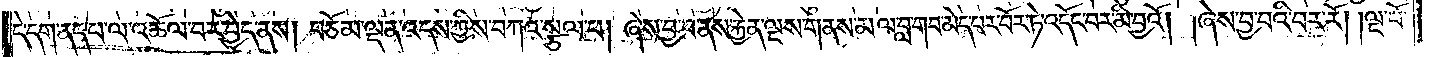དེ་དག་ནད་པ་ལ་འཆོལ་བར་བྱེད་ནས། བཅོམ་ལྡན་འདས་ཀྱིས་བཀའ་སྩལ་པ། ཞེས་བྱ་བ་ནས་རྐྱེན་ལྔས་གནས་མལ་བླ་གབ་མེད་པར་བོར་ཏེ་འདོང་བར་མི་བྱའོ། །ཞེས་བྱ་བའི་བར་རོ། །ལྔ་པོ་
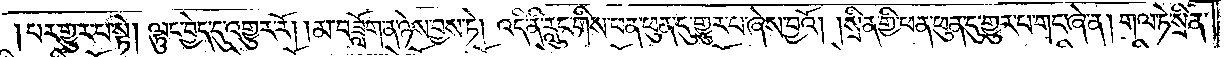པར་གྱུར་པ་སྟེ། ལྟུང་བྱེད་དུ་འགྱུར་རོ། །མ་བཟློག་ན་ཉེས་བྱས་ཏེ། འདི་ནི་རླུང་གིས་ཕན་ཕུན་དུ་གྱུར་པ་ཞེས་བྱའོ། །སྲིན་གྱི་ཕན་ཕུན་དུ་གྱུར་པ་གང་ཞེ་ན། གལ་ཏེ་སྲིན་
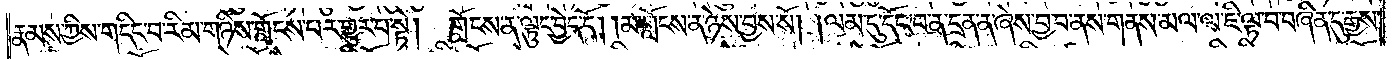རྣམས་ཀྱིས་གདིང་བ་རིམ་གཉིས་གློངས་པར་གྱུར་པ་སྟེ། གློངས་ན་ལྟུང་བྱེད་དོ། །མ་གློངས་ན་ཉེས་བྱས་སོ། །ལམ་དུ་དོང་བ་ན་དྲན་ན་ཞེས་བྱ་བ་ནས་གནས་མལ་ལ་ཇི་ལྟ་བ་བཞིན་དུ་རྒྱས་
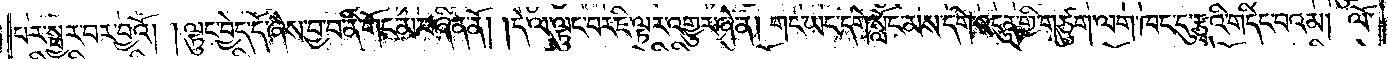པར་སྦྱར་བར་བྱའོ། །ལྟུང་བྱེད་དོ་ཞེས་བྱ་བ་ནི་གོང་མ་བཞིན་ནོ། །དེ་ལ་ལྟུང་བར་ཇི་ལྟར་འགྱུར་ཞེ་ན། གང་ཡང་དགེ་སློང་མས་དགེ་འདུན་གྱི་གཙུག་ལག་ཁང་དུ་རྩྭའི་གདིང་བའམ། ལོ་
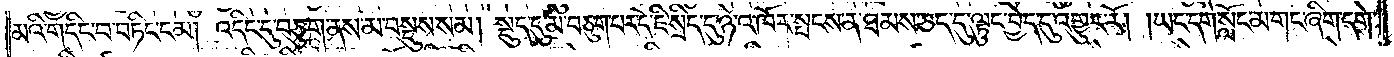མའི་གདིང་བ་བཏིང་ངམ། འདིང་དུ་བཅུག་ནས་མ་བསྡུས་སམ། སྡུད་དུ་མ་བཅུག་པར་དེ་ཇི་སྲིད་དུ་ཉེ་འཁོར་སྤངས་ན་ཐམས་ཅད་དུ་ལྟུང་བྱེད་དུ་འགྱུར་རོ། །ཡང་དགེ་སློང་མ་གང་ཞིག་དགེ་
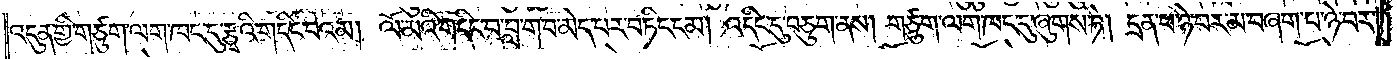འདུན་གྱི་གཙུག་ལག་ཁང་དུ་རྩྭའི་གདིང་བའམ། ལོ་མའི་གདིང་བ་བླ་གབ་མེད་པར་བཏིང་ངམ། འདིང་དུ་བཅུག་ནས། གཙུག་ལག་ཁང་དུ་ཞུགས་ཏེ། དྲན་པ་ཉེ་བར་མ་བཞག་པ་ཉེ་བར་
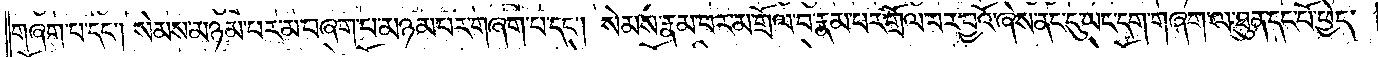གཞག་པ་དང༌། སེམས་མཉམ་པར་མ་བཞག་པ་མཉམ་པར་གཞག་པ་དང༌། སེམས་རྣམ་པར་མ་གྲོལ་བ་རྣམ་པར་གྲོལ་བར་བྱའོ་ཞེས་ནང་དུ་ཡང་དག་གཞག་ལ་ཐུན་དང་པོ་ཕྱེད་
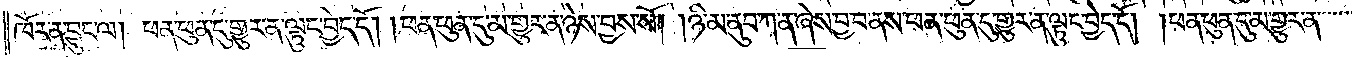ཁོར་ན་བྱུང་ལ། ཕན་ཕུན་དུ་གྱུར་ན་ལྟུང་བྱེད་དོ། །ཕན་ཕུན་དུ་མ་གྱུར་ན་ཉེས་བྱས་སོ། །ཉི་མ་ནུབ་ཀ་ན་ཞེས་བྱ་བ་ནས་ཕན་ཕུན་དུ་གྱུར་ན་ལྟུང་བྱེད་དོ། །ཕན་ཕུན་དུ་མ་གྱུར་ན་
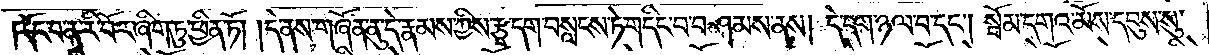དོང་བ་ན་རི་བོར་ཞིག་ཏུ་ཕྱིན་ཏོ། །དེ་ནས་གཞོན་ནུ་དེ་རྣམས་ཀྱིས་རྩྭ་དག་བསླངས་ཏེ་གདིང་བ་བཤམས་ནས། དེ་དག་ཉལ་བ་དང༌། སྦོམ་དགའ་མོས་དབུས་སུ་
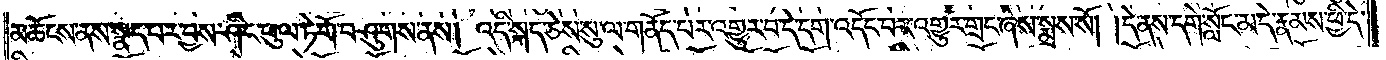མཆོངས་ནས་སྣད་པར་བྱས་ཤིང་བུལ་ཏེ་གོ་བཤུགས་ནས། འདི་སྐད་ཅེས་སུ་ལ་གནོད་པར་འགྱུར་པ་དེ་དག་འདོང་བར་འགྱུར་གྲང་ཞེས་སྨྲས་སོ། །དེ་ནས་དགེ་སློང་མ་དེ་རྣམས་ཕྱི་དེ་
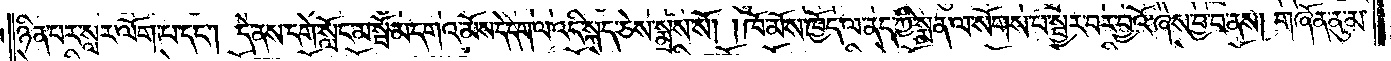ཉིན་པར་སླར་ལོག་པ་དང༌། དེ་ནས་དགེ་སློང་མ་སྦོམ་དགའ་མོས་དེ་དག་ལ་འདི་སྐད་ཅེས་སྨྲས་སོ། །ཁོ་མོས་ཁྱོད་ལ་ནད་ཀྱི་སྨན་ལ་སོགས་པ་སྦྱར་བར་བྱའོ་ཞེས་བྱ་བ་ནས། གཞོན་ནུ་མ་
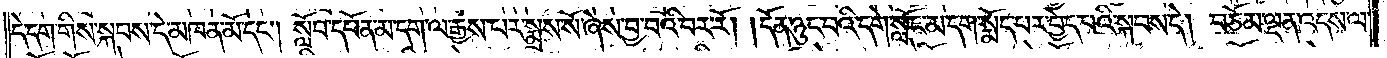དེ་དག་གིས་སྐབས་དེ་མཁན་མོ་དང༌། སློབ་དཔོན་མ་དག་ལ་རྒྱས་པར་སྨྲས་སོ་ཞེས་བྱ་བའི་བར་རོ། །དོན་ཉུང་བའི་དགེ་སློང་མ་དག་སྨོད་པར་བྱེད་པའི་སྐབས་དེ། བཅོམ་ལྡན་འདས་ལ་
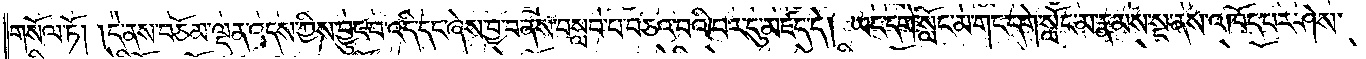གསོལ་ཏོ། །དེ་ནས་བཅོམ་ལྡན་འདས་ཀྱིས་བྱུང་བ་འདི་དང་ཞེས་བྱ་བ་ནས་བསླབ་པ་བཅའ་བའི་བར་དུ་མཛད་དེ། ཡང་དགེ་སློང་མ་གང་དགེ་སློང་མ་རྣམས་སྔ་ནས་འཁོད་པར་ཤེས་
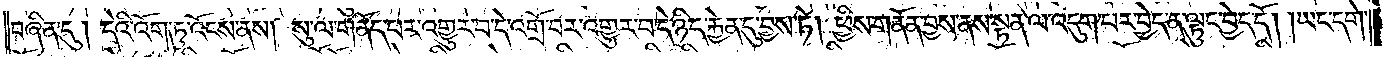བཞིན་དུ། དེའི་འོག་ཏུ་འོངས་ནས། སུ་ལ་གནོད་པར་འགྱུར་བ་དེ་འགྲོ་བར་འགྱུར་བ་དེ་ཉིད་རྐྱེན་དུ་བྱས་ཏེ། ཕྱིས་གནོན་བྱས་ནས་སྟན་ལ་འདུག་པར་བྱེད་ན་ལྟུང་བྱེད་དོ། །ཡང་དགེ་
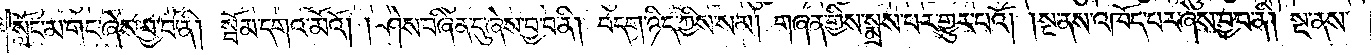སློང་མ་གང་ཞེས་བྱ་བ་ནི། སྦོམ་དགའ་མོའོ། །ཤེས་བཞིན་དུ་ཞེས་བྱ་བ་ནི། བདག་ཉིད་ཀྱིས་སམ། གཞན་གྱིས་སྨྲས་པར་གྱུར་པའོ། །སྔ་ནས་འཁོད་པར་ཞེས་བྱ་བ་ནི། སྔ་ནས་
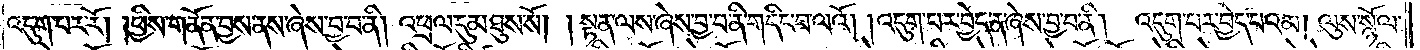འདུག་པར་རོ། །ཕྱིས་གནོན་བྱས་ནས་ཞེས་བྱ་བ་ནི། འཕྲལ་དུ་མཐུས་སོ། །སྟན་ལས་ཞེས་བྱ་བ་ནི་གདིང་བ་ལའོ། །འདུག་པར་བྱེད་ན་ཞེས་བྱ་བ་ནི། འདུག་པར་བྱེད་པའམ། ལུས་སྙོལ་
